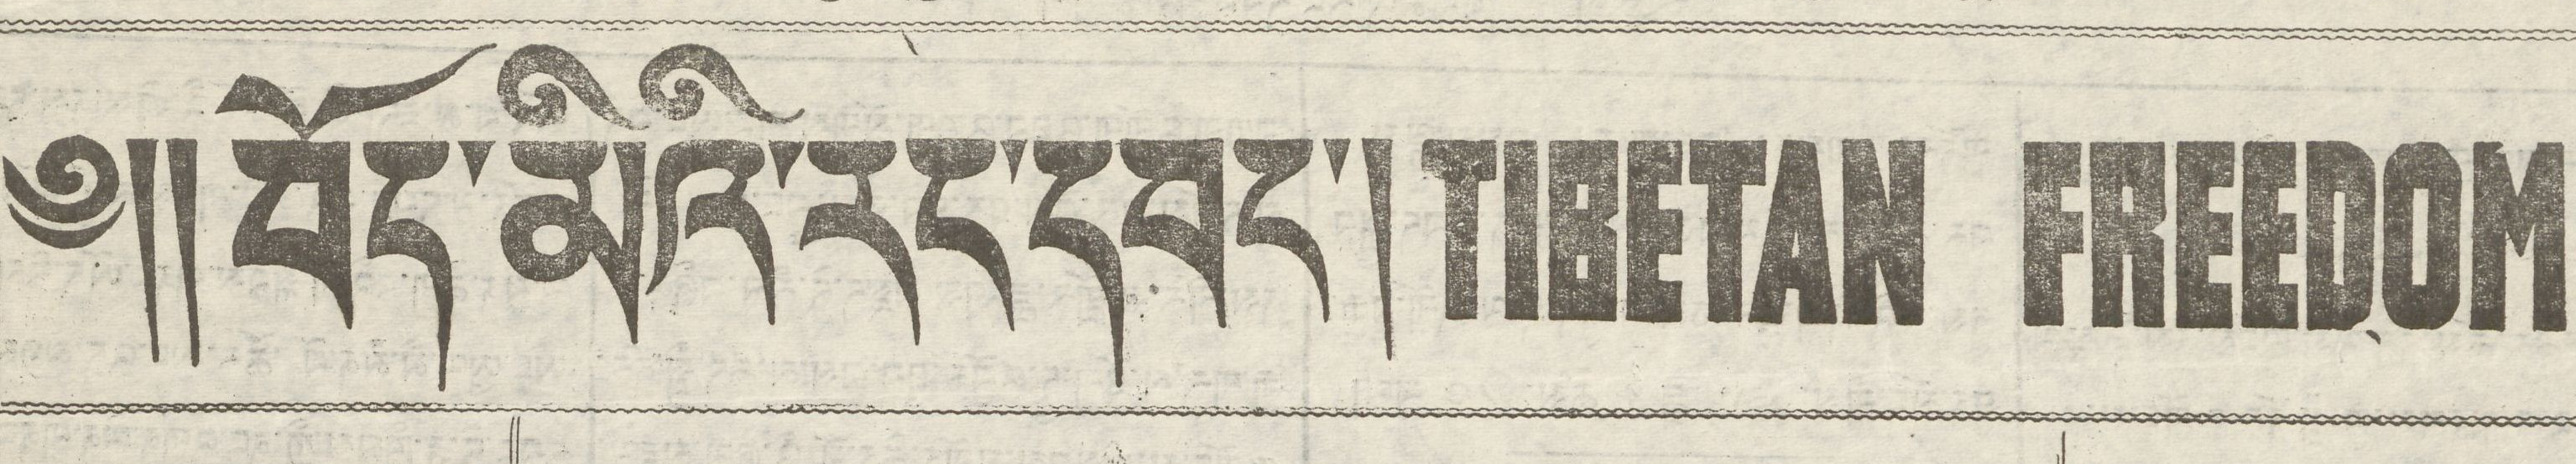༄།། བོད་མིའི་རང་དབང་།TIBETAN FREEDOM
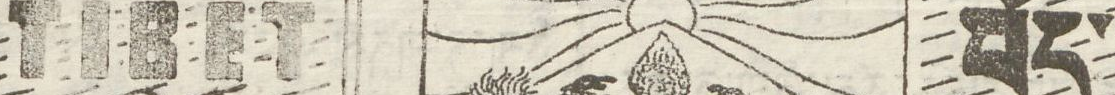TIBET བོད་
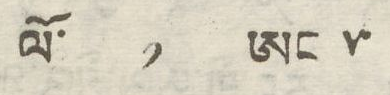ལོ་ ༡ ཨང ༥
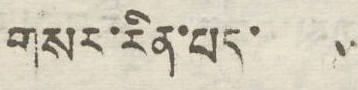གསར་རིན་པད་ ༥
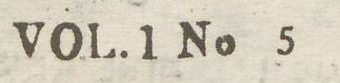VOL. 1 NO 5
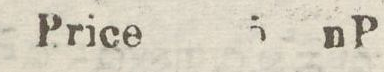Price 5 nP
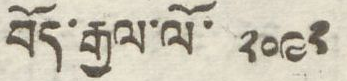བོད་རྒྱལ་ལོ་ ༢༠༩༢
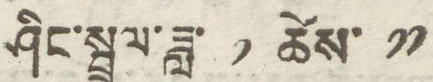ཤིང་སྦྲུལ་ཟླ་ ༡ ཚེས་ ༡༡
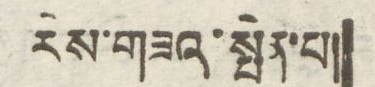རེས་གཟའ་སྤེན་པ།།
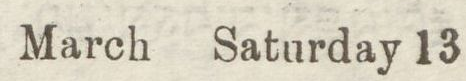March Saturday 13
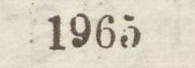1965
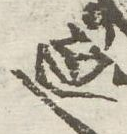ཕྱི་
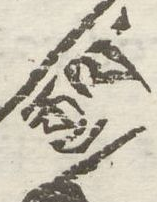རྒྱལ་
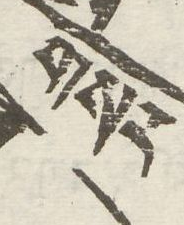གསར
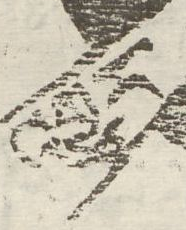འགྱུར་
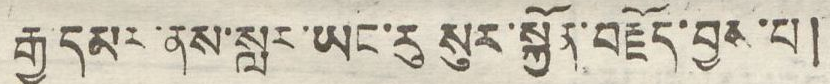རྒྱ དམར་ནས་སླར་ཡང་རུ སུར་སྐྱོན་བརྗོད་བྱས་པ།
